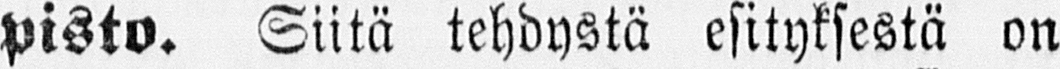pisto. Siitä tehdystä esityksestä on
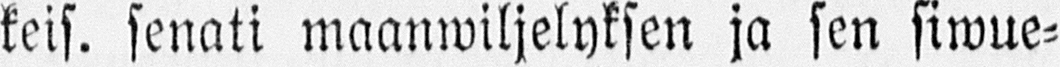keis. senati maanwiljelyksen ja sen siwue-
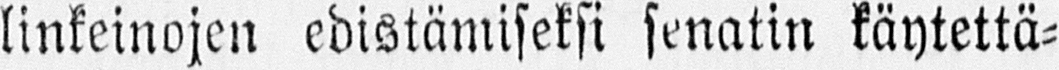linkeinojen edistämiseksi senatin käytettä-
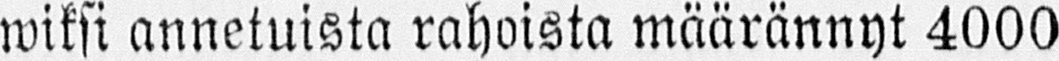wiksi annetuista rahoista määrännyt 4000
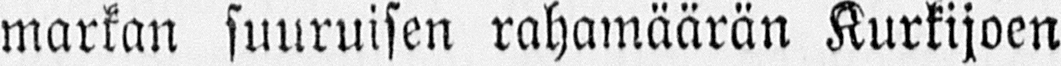markan suuruisen rahamäärän Kurkijoen
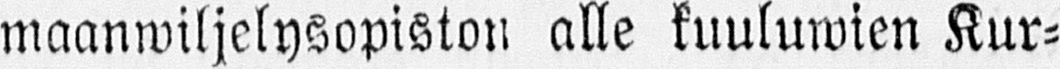maanwiljelysopiston alle kuuluwien Kur-
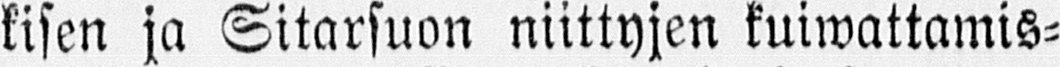kisen ja Sitarsuon niittyjen kuiwattamis-
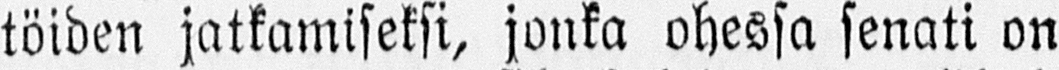töiden jatkamiseksi, jonka ohessa senati on
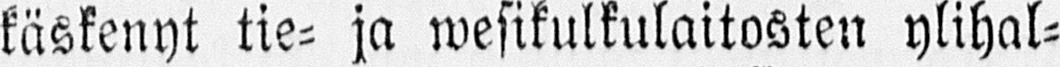käskenyt tie- ja wesikulkulaitosten ylihal-
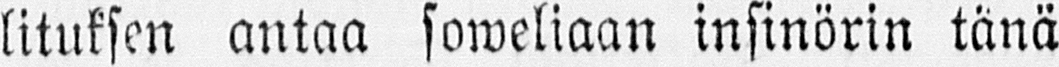lituksen antaa soweliaan insinörin tänä
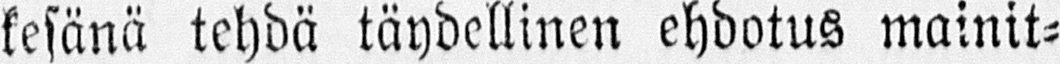kesänä tehdä täydellinen ehdotus mainit-
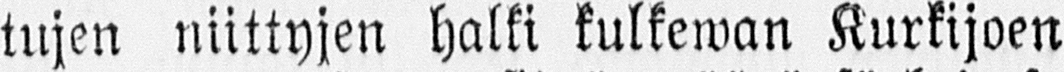tujen niittyjen halki kulkewan Kurkijoen
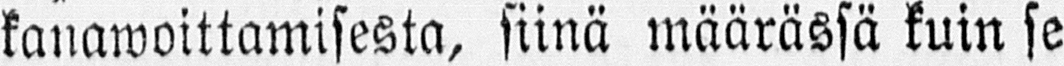kanawoittamisesta, siinä määrässä kuin se
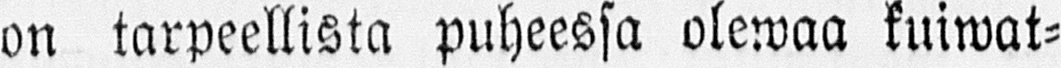on tarpeellista puheessa olewaa kuiwat-
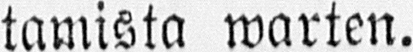tamista warten.
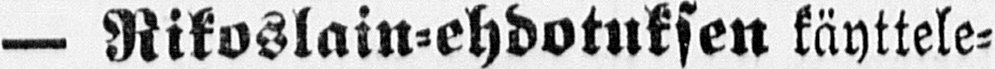— Rikoslain-ehdotuksen käyttele-
